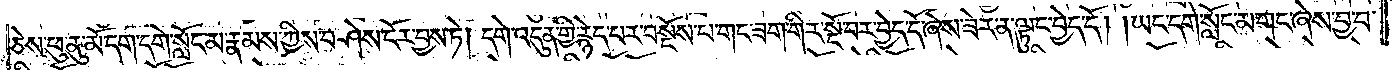ཅེས་ཕུ་ནུ་མོ་དག་དགེ་སློང་མ་རྣམས་ཀྱིས་བཤེས་ངོར་བྱས་ཏེ། དགེ་འདུན་གྱི་རྙེད་པར་བསྔོས་པ་གང་ཟག་གིར་སྔོ་བར་བྱེད་དོ་ཞེས་ཟེར་ན་ལྟུང་བྱེད་དོ། །ཡང་དགེ་སློང་མ་གང་ཞེས་བྱ་བ་
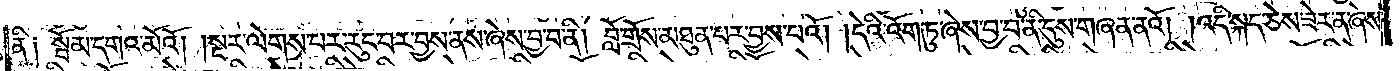ནི༑ སྦོམ་དགའ་མོའོ། །སྔར་ལེགས་པར་རུང་བར་བྱས་ནས་ཞེས་བྱ་བ་ནི། བློ་གྲོས་མཐུན་པར་བྱས་པའོ། །དེའི་འོག་ཏུ་ཞེས་བྱ་བ་ནི་དུས་གཞན་ནའོ། །འདི་སྐད་ཅེས་ཟེར་ན་ཞེས་
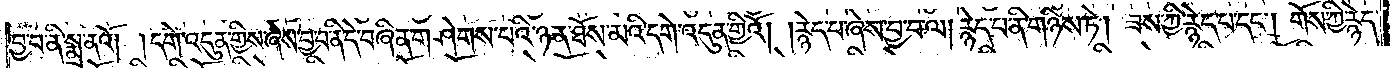བྱ་བ་ནི་སྨྲ་ནའོ། །དགེ་འདུན་གྱིས་ཞེས་བྱ་བ་ནི་དེ་བཞིན་གཤེགས་པའི་ཉན་ཐོས་མའི་དགེ་འདུན་གྱིའོ། །རྙེད་པ་ཞེས་བྱ་བ་ལ། རྙེད་པ་ནི་གཉིས་ཏེ། ཟས་ཀྱི་རྙེད་པ་དང༌། གོས་ཀྱི་རྙེད་
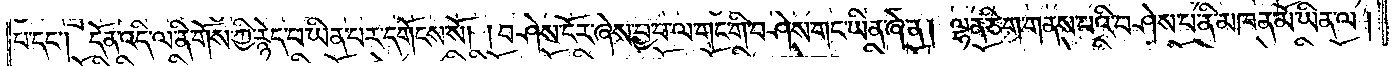པ་དང༌། དོན་འདི་ལ་ནི་གོས་ཀྱི་རྙེད་པ་ཡིན་པར་དགོངས་སོ། །བཤེས་ངོར་ཞེས་བྱ་བ་ལ་གང་གི་བཤེས་གང་ཡིན་ཞེ་ན། ལྷན་ཅིག་གནས་པའི་བཤེས་པ་ནི་མཁན་མོ་ཡིན་ལ།
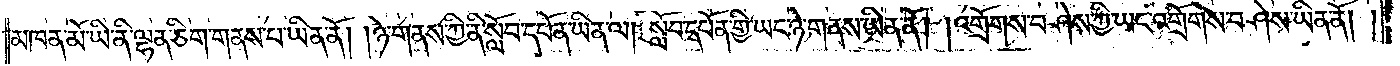མཁན་མོ་ཡི་ནི་ལྷན་ཅིག་གནས་པ་ཡིན་ནོ། །ཉེ་གནས་ཀྱི་ནི་སློབ་དཔོན་ཡིན་ལ། སློབ་དཔོན་གྱི་ཡང་ཉེ་གནས་ཡིན་ནོ། །འགྲོགས་བཤེས་ཀྱི་ཡང་འགྲོགས་བཤེས་ཡིན་ནོ། །
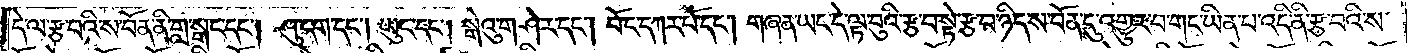དེ་ལ་རྩ་བའི་ས་བོན་ནི་གླ་སྒང་དང༌། ཤུ་དག་དང༌། ཡུང་དང༌། སྒེའུ་གཤེར་དང༌། བོ་ང་དཀར་པོ་དང༌། གཞན་ཡང་དེ་ལྟ་བུའི་རྩ་བ་སྟེ་རྩ་བ་ཉིད་ས་བོན་དུ་འགྱུར་བ་གང་ཡིན་པ་འདི་ནི་རྩ་བའི་ས་
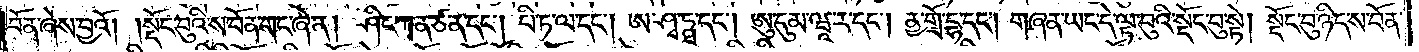བོན་ཞེས་བྱའོ། །སྡོང་བུའི་ས་བོན་གང་ཞེ་ན། ཤིང་ཀན་ཙ་ན་དང༌། པི་ཏ་ལ་དང༌། ཨ་ཤྭ་ཏྠ་དང༌། ཨུ་དུམ་ཝཱ་ར་དང༌། ནྱ་གྲོ་དྷ་དང༌། གཞན་ཡང་དེ་ལྟ་བུའི་སྡོང་བུ་སྟེ། སྡོང་བུ་ཉིད་ས་བོན་
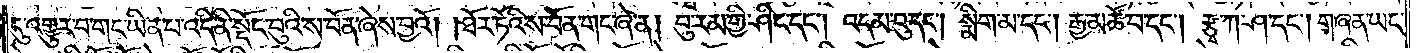དུ་འགྱུར་བ་གང་ཡིན་པ་འདི་ནི་སྡོང་བུའི་ས་བོན་ཞེས་བྱའོ། །ཐོར་ཏོའི་ས་བོན་གང་ཞེ་ན། བུ་རམ་གྱི་ཤིང་དང༌། འདམ་བུ་དང༌། སྨིག་མ་དང༌། རྒྱ་མཚོ་བ་དང༌། རྩྭ་ཀ་ཤ་དང༌། གཞན་ཡང་
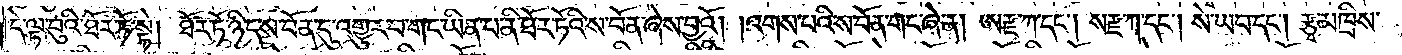དེ་ལྟ་བུའི་ཐོར་ཏོ་སྟེ། ཐོར་ཏོ་ཉིད་ས་བོན་དུ་འགྱུར་བ་གང་ཡིན་པ་ནི་ཐོར་ཏོའི་ས་བོན་ཞེས་བྱའོ། །འགས་པའི་ས་བོན་གང་ཞེ་ན། ཨརྫ་ཀ་དང༌། སརྫ་ཀ་དང༌། སེ་ཡབ་དང༌། རྩྭ་མཁྲིས་
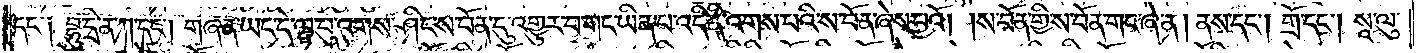དང་༑ བྷུ་དྲི་ན་ཀ་དང༌། གཞན་ཡང་དེ་ལྟ་བུ་འགས་ཤིང་ས་བོན་དུ་འགྱུར་བ་གང་ཡིན་པ་འདི་ནི་འགས་པའི་ས་བོན་ཞེས་བྱའོ། །ས་བོན་གྱི་ས་བོན་གང་ཞེ་ན། ནས་དང༌། གྲོ་དང༌། སཱ་ལུ་
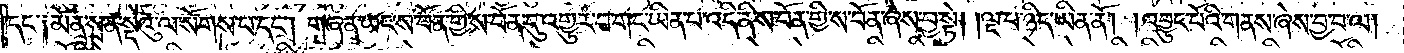དང་༑ མོན་སྲན་སྡེའུ་ལ་སོགས་པ་དང༌། གཞན་ཡང་ས་བོན་གྱི་ས་བོན་དུ་འགྱུར་བ་གང་ཡིན་པ་འདི་ནི་ས་བོན་གྱི་ས་བོན་ཞེས་བྱ་སྟེ། །ལྔ་པ་ཉིད་ཡིན་ནོ། །འབྱུང་པོའི་གནས་ཞེས་བྱ་བ་ལ།
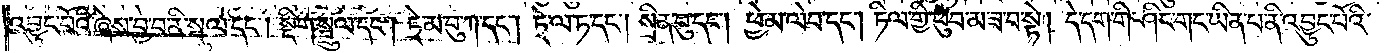འབྱུང་པོའི་ཞེས་བྱ་བ་ནི་སྦྲུལ་དང༌། སྡིག་སྦྲུལ་དང༌། ཏྲེ་མ་བུ་ཀ་དང༌། ཏྲེ་ལ་ཏ་དང༌། སྲིན་བུ་དང༌། ཕྱེ་མ་ལེབ་དང༌། ཏིལ་གྱི་ཕུབ་མ་ཟ་བ་སྟེ། དེ་དག་གི་ཤིང་གང་ཡིན་པ་ནི་འབྱུང་པོའི་
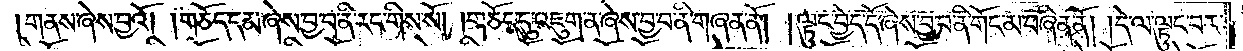།གནས་ཞེས་བྱའོ། །གཅོད་དམ་ཞེས་བྱ་བ་ནི་རང་གིས་སོ། །གཅོད་དུ་འཇུག་ན་ཞེས་བྱ་བ་ནི་གཞན་ནོ། །ལྟུང་བྱེད་དོ་ཞེས་བྱ་བ་ནི་གོང་མ་བཞིན་ནོ། །དེ་ལ་ལྟུང་བར་
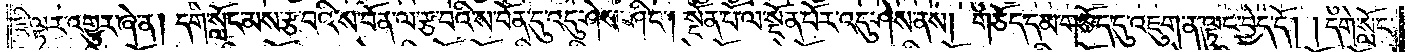ཇི་ལྟར་འགྱུར་ཞེ་ན། དགེ་སློང་མས་རྩ་བའི་ས་བོན་ལ་རྩ་བའི་ས་བོན་དུ་འདུ་ཤེས་ཤིང༌། སྔོན་པོ་ལ་སྔོན་པོར་འདུ་ཤེས་ནས། གཅོད་དམ་གཅོད་དུ་འཇུག་ན་ལྟུང་བྱེད་དོ། །དགེ་སློང་
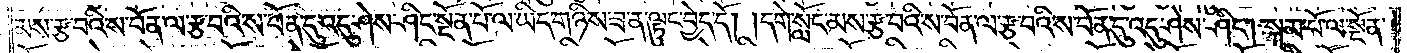མས་རྩ་བའི་ས་བོན་ལ་རྩ་བའི་ས་བོན་དུ་འདུ་ཤེས་ཤིང་སྔོན་པོ་ལ་ཡིད་གཉིས་ཟ་ན་ལྟུང་བྱེད་དོ། །དགེ་སློང་མས་རྩ་བའི་ས་བོན་ལ་རྩ་བའི་ས་བོན་དུ་འདུ་ཤེས་ཤིང༌། སྐམ་པོ་ལ་སྔོན་
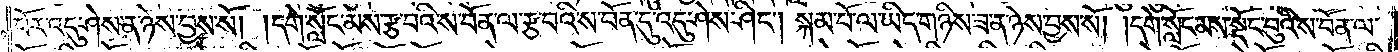པོར་འདུ་ཤེས་ན་ཉེས་བྱས་སོ། །དགེ་སློང་མས་རྩ་བའི་ས་བོན་ལ་རྩ་བའི་ས་བོན་དུ་འདུ་ཤེས་ཤིང༌། སྐམ་པོ་ལ་ཡིད་གཉིས་ཟ་ན་ཉེས་བྱས་སོ། །དགེ་སློང་མས་སྡོང་བུའི་ས་བོན་ལ་
